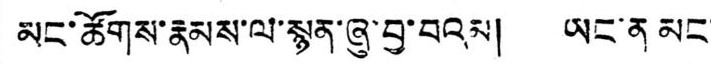མང་ཚོགས་རྣམས་ལ་སྙན་ཞུ་བྱ་བའམ། ཡང་ན མང་
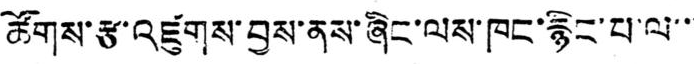ཚོགས་རྩ་འཛུགས་བྱས་ནས་ཞིང་ལས་ཁང་རྙིང་པ་ལ་་་
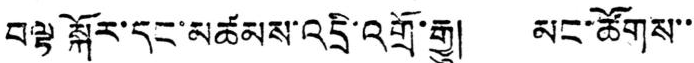བལྟ སྐོར་དང་མཚམས་འདྲི་འགྲོ་རྒྱུ། མང་ཚོགས་་་
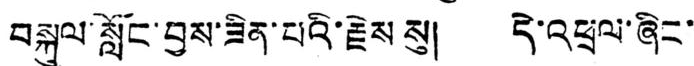བསྐུལ་སློང་བྱས་ཟིན་པའི་རྗེས སུ། དེ་འཕྲལ་ཞིང་་
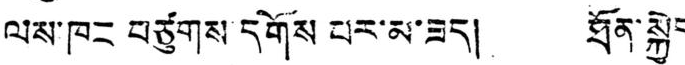ལས་ཁང བཙུགས དགོས པར་མ་ཟད། ཐོན་སྐྱེད་
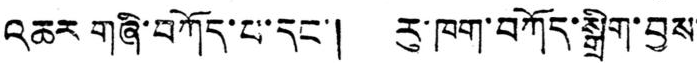འཆར གཞི་བཀོད་པ་དང་། རུ་ཁག་བཀོད་སྒྲིག་བྱས་
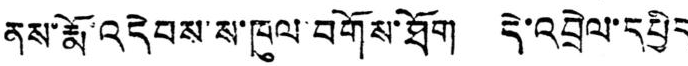ནས་རྨོ་འདེབས་ས་ཁུལ་བགོས་ཐོག དེ་འབྲེལ་དཔྱིད
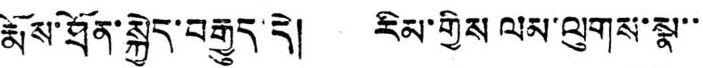རྨོས་ཐོན་སྐྱེད་བརྒྱུད་དེ། རིམ་གྱིས ལམ་ལུགས་སྣ་་
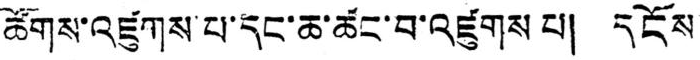ཚོགས་འཛུགས་པ་དང་ཆ་ཚང་བ་འཛུགས པ། དངོས
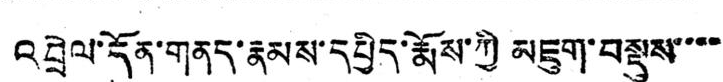འབྲེལ་དོན་གནད་རྣམས་དཔྱིད་རྨོས་ཀྱི མཇུག་བསྡུས་་་་
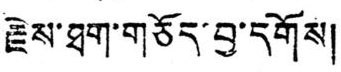རྗེས་ཐག་གཅོད་བྱ་དགོས།
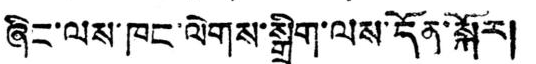ཞིང་ལས་ཁང་ལེགས་སྒྲིག་ལས་དོན་སྐོར།
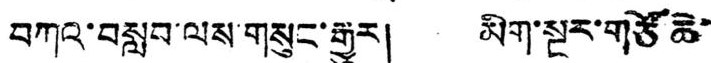བཀའ་བསླབ་ལས་གསུང་རྒྱུར། མིག་སྔར་གཙོ ཆེ་
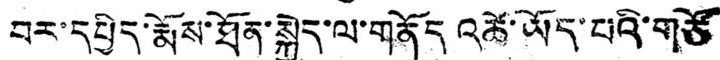བར་དཔྱིད་རྨོས་ཐོན་སྐྱེད་ལ་གནོད འཚེ་ཡོད་པའི་གཙོ
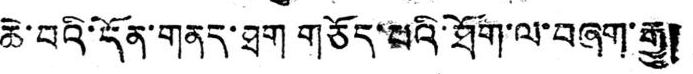ཆེ་བའི་དོན་གནད་ཐག གཅོད་པའི་ཐོག་ལ་བཞག་རྒྱུ།
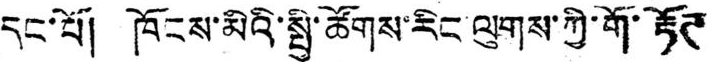དང་པོ། ཁོངས་མིའི་སྤྱི་ཚོགས་རིང ལུགས་ཀྱི་གོ་རྟོཊ
